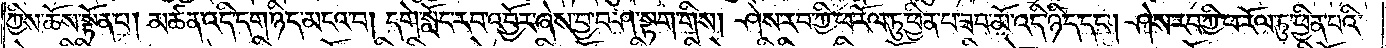ཀྱིས་ཆོས་སྟོན་པ། མཚན་འདི་དག་ཉིད་མངའ་བ། དགེ་སློང་རབ་འབྱོར་ཞེས་བྱ་བ་ཤ་སྟག་གིས། ཤེས་རབ་ཀྱི་ཕ་རོལ་ཏུ་ཕྱིན་པ་ཟབ་མོ་འདི་ཉིད་དང༌། ཤེས་རབ་ཀྱི་ཕ་རོལ་ཏུ་ཕྱིན་པའི་
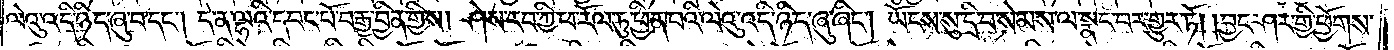ལེའུ་འདི་ཉིད་ཞུ་བ་དང༌། དེ་ན་ལྷའི་དབང་པོ་བརྒྱ་བྱིན་གྱིས། ཤེས་རབ་ཀྱི་ཕ་རོལ་ཏུ་ཕྱིན་པའི་ལེའུ་འདི་ཉིད་ཞུ་ཞིང༌། ཡོངས་སུ་དྲི་བ་སེམས་ལ་སྣང་བར་གྱུར་ཏོ། །བྱང་ཤར་གྱི་ཕྱོགས་
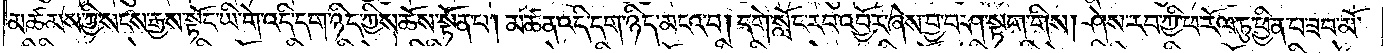མཚམས་ཀྱི་སངས་རྒྱས་སྟོང་ཡི་གེ་འདི་དག་ཉིད་ཀྱིས་ཆོས་སྟོན་པ། མཚན་འདི་དག་ཉིད་མངའ་བ། དགེ་སློང་རབ་འབྱོར་ཞེས་བྱ་བ་ཤ་སྟག་གིས། ཤེས་རབ་ཀྱི་ཕ་རོལ་ཏུ་ཕྱིན་པ་ཟབ་མོ་
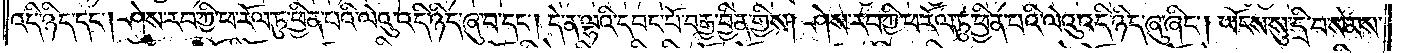འདི་ཉིད་དང༌། ཤེས་རབ་ཀྱི་ཕ་རོལ་ཏུ་ཕྱིན་པའི་ལེའུ་འདི་ཉིད་ཞུ་བ་དང༌། དེ་ན་ལྷའི་དབང་པོ་བརྒྱ་བྱིན་གྱིས། ཤེས་རབ་ཀྱི་ཕ་རོལ་ཏུ་ཕྱིན་པའི་ལེའུ་འདི་ཉིད་ཞུ་ཞིང༌། ཡོངས་སུ་དྲི་བ་སེམས་
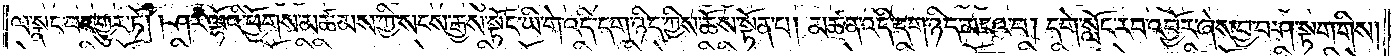ལ་སྣང་བར་གྱུར་ཏོ། །ཤར་ལྷོའི་ཕྱོགས་མཚམས་ཀྱི་སངས་རྒྱས་སྟོང་ཡི་གེ་འདི་དག་ཉིད་ཀྱིས་ཆོས་སྟོན་པ། མཚན་འདི་དག་ཉིད་མངའ་བ། དགེ་སློང་རབ་འབྱོར་ཞེས་བྱ་བ་ཤ་སྟག་གིས།
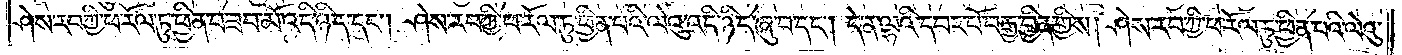ཤེས་རབ་ཀྱི་ཕ་རོལ་ཏུ་ཕྱིན་པ་ཟབ་མོ་འདི་ཉིད་དང༌། ཤེས་རབ་ཀྱི་ཕ་རོལ་ཏུ་ཕྱིན་པའི་ལེའུ་འདི་ཉིད་ཞུ་བ་དང༌། དེ་ན་ལྷའི་དབང་པོ་བརྒྱ་བྱིན་གྱིས། ཤེས་རབ་ཀྱི་ཕ་རོལ་ཏུ་ཕྱིན་པའི་ལེའུ་
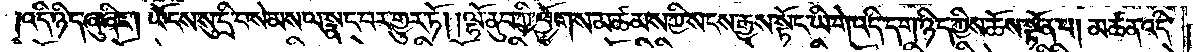འདི་ཉིད་ཞུ་ཞིང༌། ཡོངས་སུ་དྲི་བ་སེམས་ལ་སྣང་བར་གྱུར་ཏོ། །ལྷོ་ནུབ་ཀྱི་ཕྱོགས་མཚམས་ཀྱི་སངས་རྒྱས་སྟོང་ཡི་གེ་འདི་དག་ཉིད་ཀྱིས་ཆོས་སྟོན་པ། མཚན་འདི་
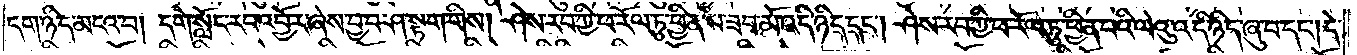དག་ཉིད་མངའ་བ། དགེ་སློང་རབ་འབྱོར་ཞེས་བྱ་བ་ཤ་སྟག་གིས། ཤེས་རབ་ཀྱི་ཕ་རོལ་ཏུ་ཕྱིན་པ་ཟབ་མོ་འདི་ཉིད་དང༌། ཤེས་རབ་ཀྱི་ཕ་རོལ་ཏུ་ཕྱིན་པའི་ལེའུ་འདི་ཉིད་ཞུ་བ་དང༌། དེ་
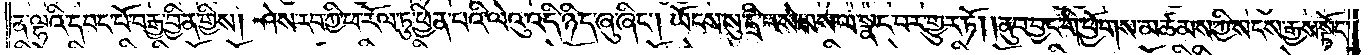ན་ལྷའི་དབང་པོ་བརྒྱ་བྱིན་གྱིས། ཤེས་རབ་ཀྱི་ཕ་རོལ་ཏུ་ཕྱིན་པའི་ལེའུ་འདི་ཉིད་ཞུ་ཞིང༌། ཡོངས་སུ་དྲི་བ་སེམས་ལ་སྣང་བར་གྱུར་ཏོ། །ནུབ་བྱང་གི་ཕྱོགས་མཚམས་ཀྱི་སངས་རྒྱས་སྟོང་
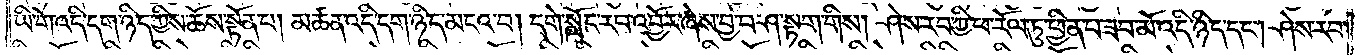ཡི་གེ་འདི་དག་ཉིད་ཀྱིས་ཆོས་སྟོན་པ། མཚན་འདི་དག་ཉིད་མངའ་བ། དགེ་སློང་རབ་འབྱོར་ཞེས་བྱ་བ་ཤ་སྟག་གིས། ཤེས་རབ་ཀྱི་ཕ་རོལ་ཏུ་ཕྱིན་པ་ཟབ་མོ་འདི་ཉིད་དང༌། ཤེས་རབ་
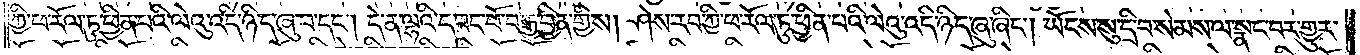ཀྱི་ཕ་རོལ་ཏུ་ཕྱིན་པའི་ལེའུ་འདི་ཉིད་ཞུ་བ་དང༌། དེ་ན་ལྷའི་དབང་པོ་བརྒྱ་བྱིན་གྱིས། ཤེས་རབ་ཀྱི་ཕ་རོལ་ཏུ་ཕྱིན་པའི་ལེའུ་འདི་ཉིད་ཞུ་ཞིང༌། ཡོངས་སུ་དྲི་བ་སེམས་ལ་སྣང་བར་གྱུར་
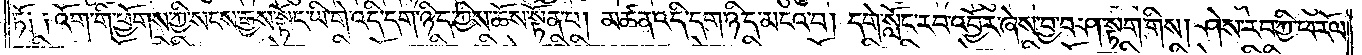ཏོ༑ ༑འོག་གི་ཕྱོགས་ཀྱི་སངས་རྒྱས་སྟོང་ཡི་གེ་འདི་དག་ཉིད་ཀྱིས་ཆོས་སྟོན་པ། མཚན་འདི་དག་ཉིད་མངའ་བ། དགེ་སློང་རབ་འབྱོར་ཞེས་བྱ་བ་ཤ་སྟག་གིས། ཤེས་རབ་ཀྱི་ཕ་རོལ་
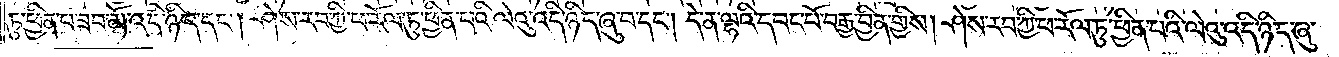ཏུ་ཕྱིན་པ་ཟབ་མོ་འདི་ཉིད་དང༌། ཤེས་རབ་ཀྱི་ཕ་རོལ་ཏུ་ཕྱིན་པའི་ལེའུ་འདི་ཉིད་ཞུ་བ་དང༌། དེ་ན་ལྷའི་དབང་པོ་བརྒྱ་བྱིན་གྱིས། ཤེས་རབ་ཀྱི་ཕ་རོལ་ཏུ་ཕྱིན་པའི་ལེའུ་འདི་ཉིད་ཞུ་
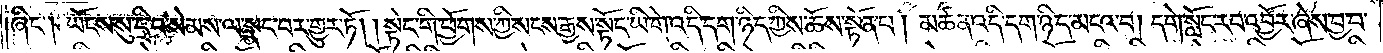ཞིང༌། ཡོངས་སུ་དྲི་བ་སེམས་ལ་སྣང་བར་གྱུར་ཏོ། །སྟེང་གི་ཕྱོགས་ཀྱི་སངས་རྒྱས་སྟོང་ཡི་གེ་འདི་དག་ཉིད་ཀྱིས་ཆོས་སྟོན་པ། མཚན་འདི་དག་ཉིད་མངའ་བ། དགེ་སློང་རབ་འབྱོར་ཞེས་བྱ་བ་
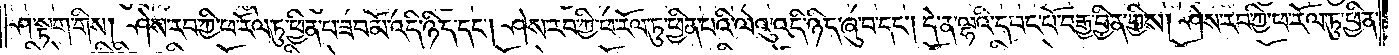ཤ་སྟག་གིས། ཤེས་རབ་ཀྱི་ཕ་རོལ་ཏུ་ཕྱིན་པ་ཟབ་མོ་འདི་ཉིད་དང༌། ཤེས་རབ་ཀྱི་ཕ་རོལ་ཏུ་ཕྱིན་པའི་ལེའུ་འདི་ཉིད་ཞུ་བ་དང༌། དེ་ན་ལྷའི་དབང་པོ་བརྒྱ་བྱིན་གྱིས། ཤེས་རབ་ཀྱི་ཕ་རོལ་ཏུ་ཕྱིན་
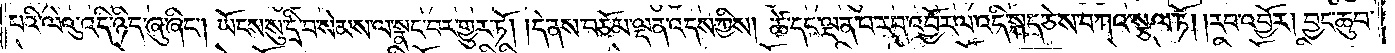པའི་ལེའུ་འདི་ཉིད་ཞུ་ཞིང༌། ཡོངས་སུ་དྲི་བ་སེམས་ལ་སྣང་བར་གྱུར་ཏོ། །དེ་ནས་བཅོམ་ལྡན་འདས་ཀྱིས། ཚེ་དང་ལྡན་པ་རབ་འབྱོར་ལ་འདི་སྐད་ཅེས་བཀའ་སྩལ་ཏོ། །རབ་འབྱོར། བྱང་ཆུབ་
